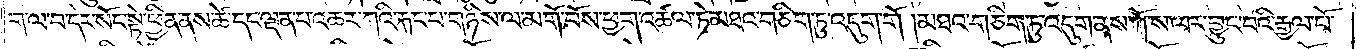ག་ལ་བ་དེར་སོང་སྟེ་ཕྱིན་ནས་ཚེ་དང་ལྡན་པ་འཆར་ཀའི་རྐང་པ་གཉིས་ལ་མགོ་བོས་ཕྱག་འཚལ་ཏེ་མཐའ་གཅིག་ཏུ་འདུག་གོ །མཐའ་གཅིག་ཏུ་འདུག་ནས་ཀོ་ས་ལར་བྱུང་བའི་རྒྱལ་པོ་
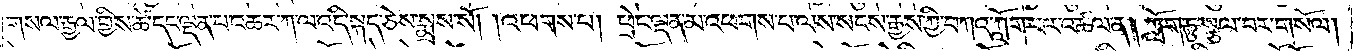གསལ་རྒྱལ་གྱིས་ཚེ་དང་ལྡན་པ་འཆར་ཀ་ལ་འདི་སྐད་ཅེས་སྨྲས་སོ། །འཕགས་པ། ཕྲེང་ལྡན་མ་འཕགས་པ་ལས་སངས་རྒྱས་ཀྱི་བཀའ་ཀློག་པར་འཚལ་ན། ཀློག་ཏུ་སྩལ་བར་གསོལ།
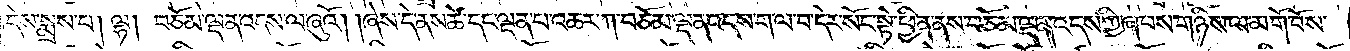དེས་སྨྲས་པ། ལྷ། བཅོམ་ལྡན་འདས་ལ་ཞུའོ། །ཞེས་དེ་ནས་ཚེ་དང་ལྡན་པ་འཆར་ཀ་བཅོམ་ལྡན་འདས་ག་ལ་བ་དེར་སོང་སྟེ་ཕྱིན་ནས་བཅོམ་ལྡན་འདས་ཀྱི་ཞབས་གཉིས་ལ་མགོ་བོས་
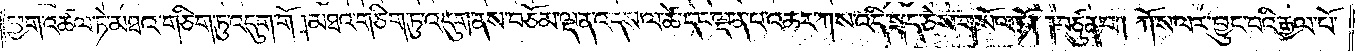ཕྱག་འཚལ་ཏེ་མཐའ་གཅིག་ཏུ་འདུག་གོ། མཐའ་གཅིག་ཏུ་འདུག་ནས་བཅོམ་ལྡན་འདས་ལ་ཚེ་དང་ལྡན་པ་འཆར་ཀས་འདི་སྐད་ཅེས་གསོལ་ཏོ། །བཙུན་པ། ཀོ་ས་ལར་བྱུང་བའི་རྒྱལ་པོ་
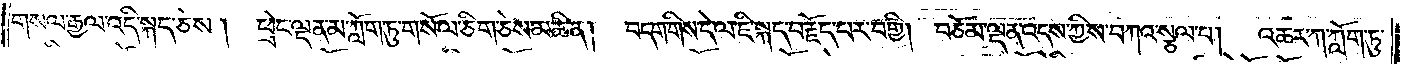གསལ་རྒྱལ་འདི་སྐད་ཅེས། ཕྲེང་ལྡན་མ་ཀློག་ཏུ་གསོལ་ཅིག་ཅེས་མཆི་ན། བདག་གིས་དེ་ལ་ཇི་སྐད་བརྗོད་པར་བགྱི། བཅོམ་ལྡན་འདས་ཀྱིས་བཀའ་སྩལ་པ། འཆར་ཀ་ཀློག་ཏུ་
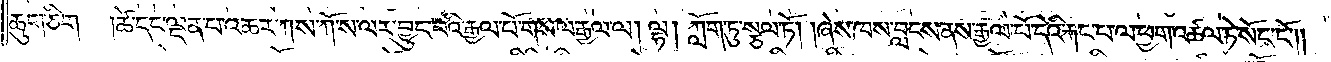ཆུག་ཅིག །ཚེ་དང་ལྡན་པ་འཆར་ཀས་ཀོ་ས་ལར་བྱུང་བའི་རྒྱལ་པོ་གསལ་རྒྱལ་ལ། ལྷ། ཀློག་ཏུ་སྩལ་ཏོ། །ཞེས་ཁས་བླངས་ནས་རྒྱལ་པོ་དེའི་རྐང་པ་ལ་ཕྱག་འཚལ་ཏེ་སོང་ངོ༌༎
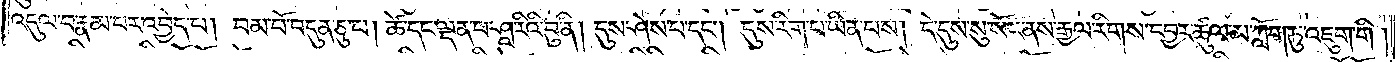འདུལ་བ་རྣམ་པར་འབྱེད་པ། བམ་པོ་བདུན་ཅུ་པ། ཚེ་དང་ལྡན་པ་ཤཱ་རིའི་བུ་ནི། དུས་ཤེས་པ་དང༌། དུས་རིག་པ་ཡིན་པས། དེ་དུས་སུ་སོང་ནས་རྒྱལ་རིགས་དབྱར་ཚུལ་མ་ཀློག་ཏུ་འཇུག་གི །
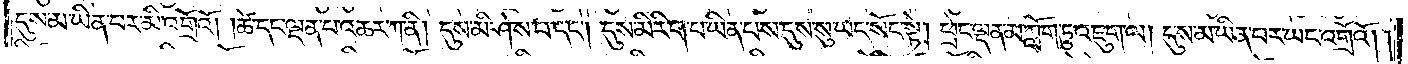དུས་མ་ཡིན་པར་མི་འགྲོའོ། །ཚེ་དང་ལྡན་པ་འཆར་ཀ་ནི། དུས་མི་ཤེས་པ་དང༌། དུས་མི་རིག་པ་ཡིན་པས་དུས་སུ་ཡང་སོང་སྟེ། ཕྲེང་ལྡན་མ་ཀློག་ཏུ་འཇུག་ལ། དུས་མ་ཡིན་པར་ཡང་འགྲོའོ། །
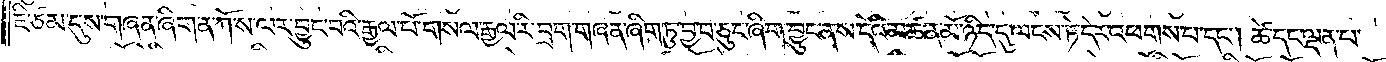ཇི་ཙམ་དུས་གཞན་ཞིག་ན་ཀོ་ས་ལར་བྱུང་བའི་རྒྱལ་པོ་གསལ་རྒྱལ་རི་བྲག་གཞན་ཞིག་ཏུ་བྱ་བ་ཅུང་ཞིག་བྱུང་ནས་དེའི་མཚན་མོ་ཉིད་དུ་ལངས་ཏེ་དེར་འཕགས་པ་དང༌། ཚེ་དང་ལྡན་པ་
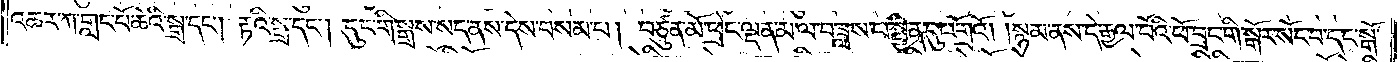འཆར་ཀ་གླང་པོ་ཆེའི་སྒྲ་དང༌། རྟའི་སྒྲ་དང༌། དུང་གི་སྒྲས་སད་ནས་དེས་བསམ་པ། བཙུན་མོ་ཕྲེང་ལྡན་མ་ལ་བཟླས་པ་སྦྱིན་དུ་འགྲོའོ། །སྙམ་ནས་དེ་རྒྱལ་པོའི་ཕོ་བྲང་གི་སྒོར་སོང་བ་དང་སྒོ་
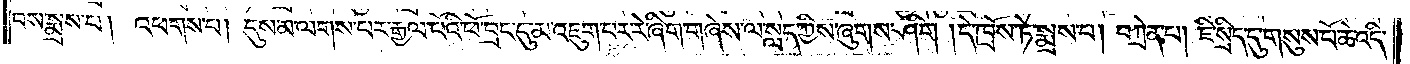བས་སྨྲས་པ། འཕགས་པ། དུས་མ་ལགས་པར་རྒྱལ་པོའི་ཕོ་བྲང་དུ་མ་འཇུག་པར་རེ་ཞིག་གཞེས་ལ་སླད་ཀྱིས་ཞུགས་ཤིག །དེ་ཁྲོས་ཏེ་སྨྲས་པ། བཀྲེན་པ། ཇི་སྲིད་དུ་གསུས་པོ་ཆེ་འདི་
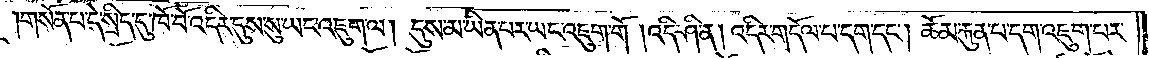གསོན་པ་དེ་སྲིད་དུ་ཁོ་བོ་འདིར་དུས་སུ་ཡང་འཇུག་ལ། དུས་མ་ཡིན་པར་ཡང་འཇུག་གོ །འདི་ཤི་ན། འདིར་གདོལ་པ་དག་དང༌། ཆོམ་རྐུན་པ་དག་འཇུག་པར་
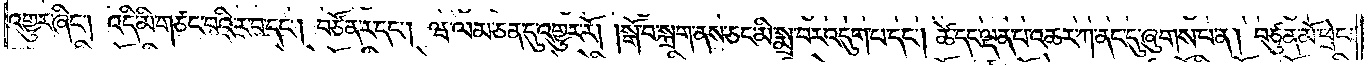འགྱུར་ཞིང༌། འདི་མི་གཙང་བའི་ར་བ་དང༌། བཙོན་ར་དང༌། ཝ་ལམ་ཅན་དུ་འགྱུར་རོ། །སྒོ་བ་སྐྲག་ནས་ཅང་མི་སྨྲ་བར་འདུག་པ་དང༌། ཚེ་དང་ལྡན་པ་འཆར་ཀ་ནང་དུ་ཞུགས་པ་ན། བཙུན་མོ་ཕྲེང་
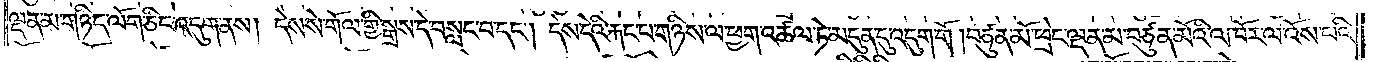ལྡན་མ་གཉིད་ལོག་ཅིང་འདུག་ནས། དེས་སེ་གོལ་གྱི་སྒྲས་དེ་བསླང་བ་དང༌། དེས་དེའི་རྐང་པ་གཉིས་ལ་ཕྱག་འཚལ་ཏེ་མདུན་དུ་འདུག་གོ །བཙུན་མོ་ཕྲེང་ལྡན་མ་བཙུན་མོའི་འཁོར་ལ་འོས་པའི་
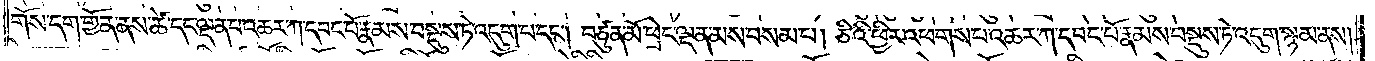གོས་དག་གྱོན་ནས་ཚེ་དང་ལྡན་པ་འཆར་ཀ་དབང་པོ་རྣམས་བསྡུས་ཏེ་འདུག་པ་དང༌། བཙུན་མོ་ཕྲེང་ལྡན་མས་བསམ་པ། ཅིའི་ཕྱིར་འཕགས་པ་འཆར་ཀ་དབང་པོ་རྣམས་བསྡུས་ཏེ་འདུག་སྙམ་ནས།
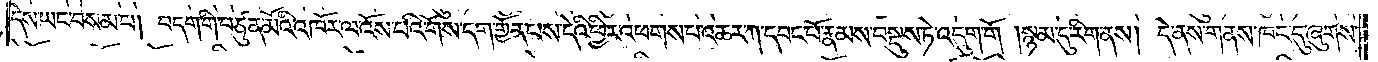དེས་ཡང་བསམ་པ། བདག་གི་བཙུན་མོའི་འཁོར་ལ་འོས་པའི་གོས་དག་གྱོན་པས་དེའི་ཕྱིར་འཕགས་པ་འཆར་ཀ་དབང་པོ་རྣམས་བསྡུས་ཏེ་འདུག་གོ །སྙམ་དུ་རིག་ནས། དེ་ནས་གནས་ཁང་དུ་ཞུགས་
